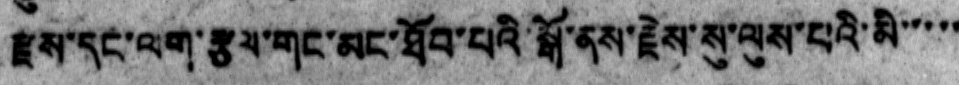རྫས་དང་ལག་རྩས་གང་མང་ཐོབ་པའི་སྒོ་ནས་རྗེས་སུ་ལུས་པའི་མི་་་་་
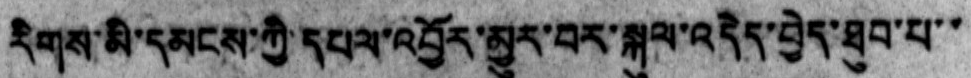རིགས་མི་དམངས་ཀྱི་དཔལ་འབྱོར་མྱུར་བར་སྐུལ་འདིད་བྱེད་ཐུབ་པ་་
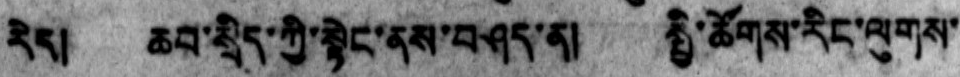རེད། ཆབ་སྲིད་ཀྱི་སྟེང་ནས་བཤད་ན། སྤྱི་ཚོགས་རིང་ལུགས་
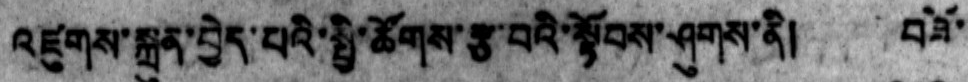འཛུགས་སྐྲུན་བྱེད་པའི་སྤྱི་ཚོགས་རྩ་བའི་སྟོབས་ཤུགས་ནི། བཟོ་
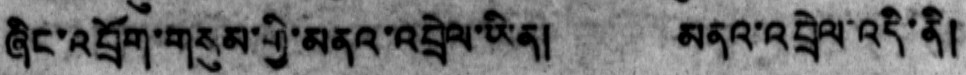ཞིང་འབྲོག་གཙུམ་གྱི་མནའ་འབྲེལ་ཡིན། མནའ་འབྲེལ་འདི་ནི།
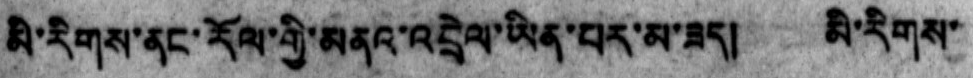མི་རིགས་ནང་རོལ་གྱི་མནའ་འབྲེལ་ཡིན་པར་མ་ཟད། མི་རིགས་
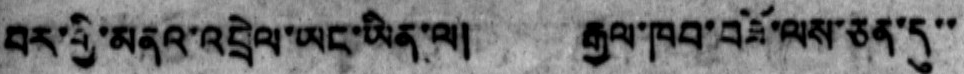བར་གྱི་མནའ་འབྲེལ་ཡང་ཡིན་ལ། རྒྱལ་ཁབ་བཟི་ལས་ཅན་དུ་་
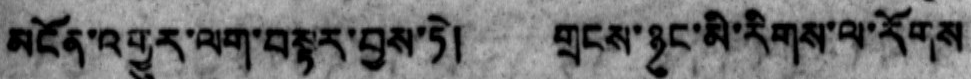མངོན་འགྱུར་ལག་བསྟར་བྱས་ཏེ། གྲངས་ཉུང་མི་རིགས་ལ་རོགས
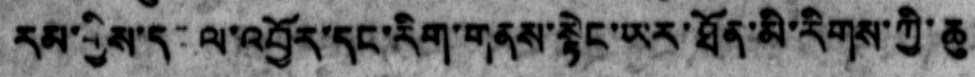རམ་གྱིས་དཔལ་འབྱོར་དང་རིག་གནས་སྟེང་ཡར་ཐོན་མི་རིགས་ཀྱི་ཆུ
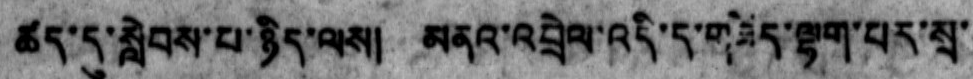ཚད་དུ་སླེབས་པ་ཉིད་ལས། མནའ་འབྲེལ་འདི་ད་གཟོད་ལྷག་པར་སྲ་
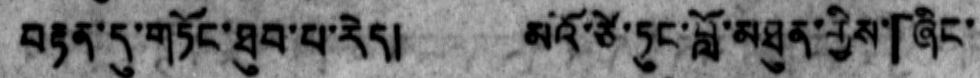བརྟན་དུ་གཏོང་ཐུབ་པ་རེད།  མའོ་ཙེ་ཏུང་བློ་མཐུན་གྱིས་ 「ཞིང་
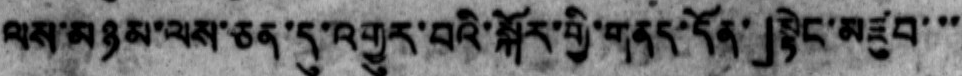ལས་མཉམ་ལས་ཅན་དུ་འགྱུར་བའི་སྐོར་གྱི་གནད་དོན་」སྟེང་མཛུབ་་་
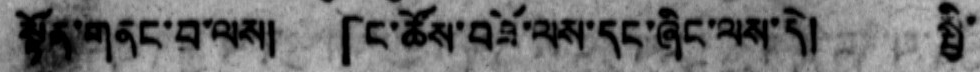སྟོན་གནང་བ་ལས།  「ང་ཚོས་བཟོ་ལས་དང་ཞིང་ལས་དེ།  སྤྱི་
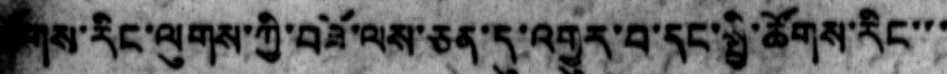ཚོགས་རིང་ལུགས་ཀྱི་བཟོ་ལས་ཅན་དུ་འགྱུར་བ་དང་སྤྱི་ཚོགས་རིང་་་
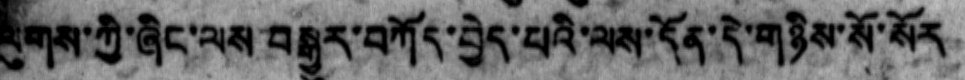ལུགས་ཀྱི་ཞིང་ལས བསྒྱུར་བཀོད་བྱེད་པའི་ལས་དོན་དེ་གཉིས་སོ་སོར
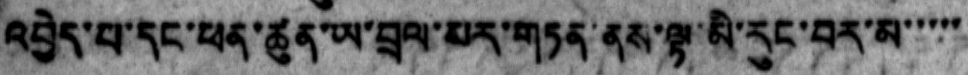འབྱེད་པ་དང་ཕན་ཚུན་ཡ་བྲལ་མར་གཏན་ནས་ལྟ་མི་རུང་བར་མ་་་་་
